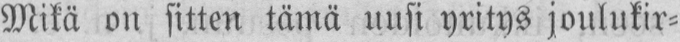Mikä on sitten tämä uusi yritys joulukir-
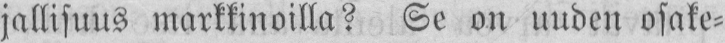jallisuus markkinoilla? Se on uuden osake-
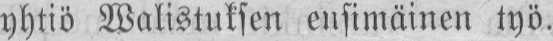yhtiö Walistuksen ensimäinen työ.
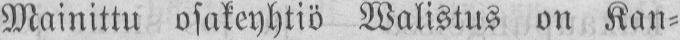Mainittu osakeyhtiö Walistus on Kan-
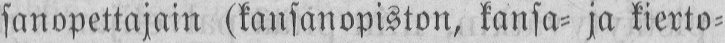sanopettajain (kansanopiston, kansa- ja kierto-
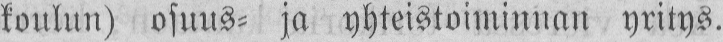koulun) osuus- ja yhteistoiminnan yritys.
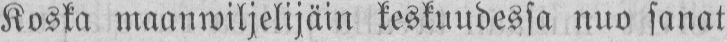Koska maanwiljelijäin keskuudessa nuo sanat
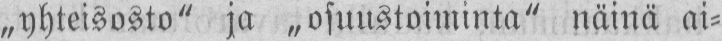„yhteisosto" ja „osuustoiminta" näinä ai-
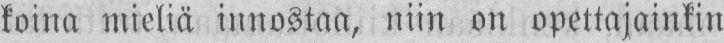koina mieliä innostaa, niin on opettajainkin
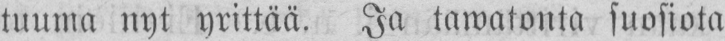tuuma nyt yrittää. Ja tawatonta suosiota
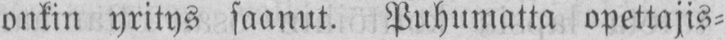onkin yritys saanut. Puhumatta opettajis-
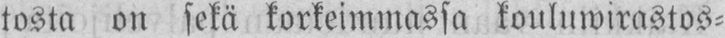tosta on sekä korkeimmassa kouluwirastos-
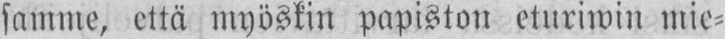samme, että myöskin papiston eturiwin mie-
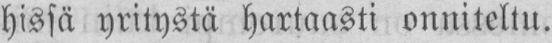hissä yritystä hartaasti onniteltu.
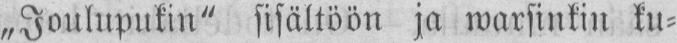„Joulupukin" sisältöön ja warsinkin ku-
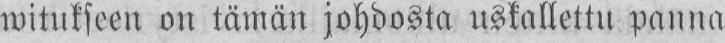witukseen on tämän johdosta uskallettu panna
